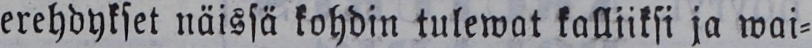erehdykset näissä kohdin tulewat kalliiksi ja wai-
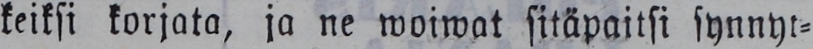keiksi korjata, ja ne woiwat sitäpaitsi synnyt-
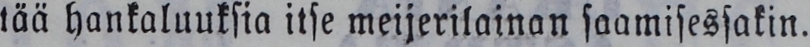tää hankaluuksia itse meijerilainan saamisessakin.
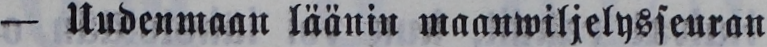— Uudenmaan läänin maanwiljelysseuran
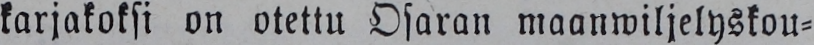karjakoksi on otettu Osaran maanwiljelyskou-
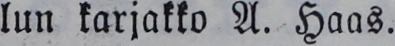lun karjakko A. Haas.
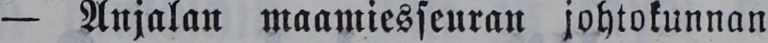— Anjalan maamiesseuran johtokunnan
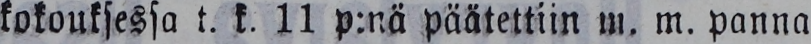kokouksessa t. k. 11 p:nä päätettiin m. m. panna
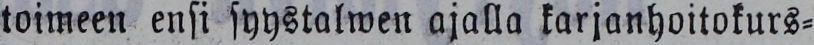toimeen ensi syystalwen ajalla karjanhoitokurs-
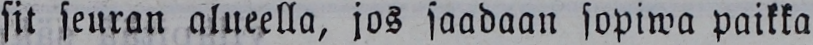sit seuran alueella, jos saadaan sopiwa paikka
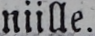niille.
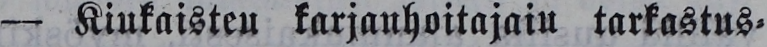— Kiukaisteu karjanhoitajaiu tarkastus-
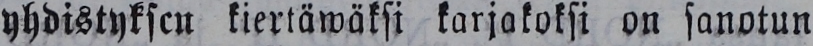yhdistykscn kiertäwäksi karjakoksi on sanotun
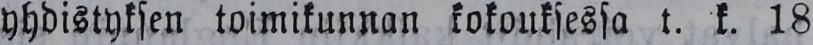yhdistyksen toimikunnan kokouksessa t. k. 18
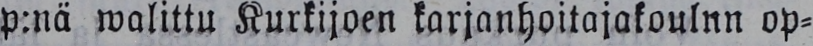p:nä walittu Kurkijoen karjanhoitajakoulnn op-
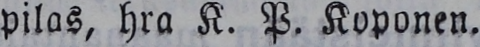pilas, hra K. P. Koponen.
